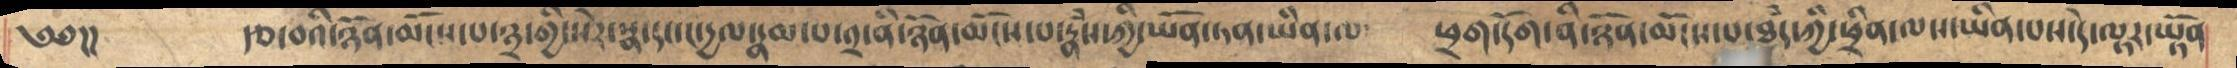༄༅།།     རྩ་བའི་ཉོན་མོངས་པ་༣་གྱི་སེར་སྣ་དང་ང་རྒྱལ་རྣམ་པ་༢་ནི་ཉོན་མོངས་པ་རྣཾས་ཀྱི་ཡོན་ཏན་ཡིན་ལ༴   ཕྲག་དོག་ནི་ཉོན་མོངས་པ་ཐམད་ཀྱི་ཕྲིན་ལས་ཡིན་པས་དེ་ལྟར་ཡྟོན
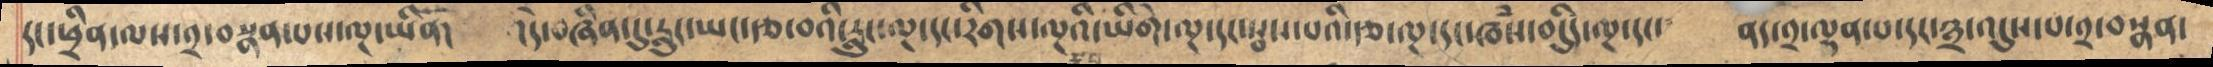རང་ཕྲིན་ལས་༢་བསྣན་པས་ལྔ་ཡིནོ།  དེ་བཞིན་དུ་རླུང་ཡང་རྩ་བའི་རླུང་ལྔ་དང་རིགས་ལྔའི་ཡིགེ་ལྔ་དང་སྦས་པའི་རྩ་ལྔ་དང་ཁཾས་བདིུད་ལྔ་དང་༴  ནད་༢་ལྡན་པ་དང་༣་འདུས་པ་༢་བསྣན་
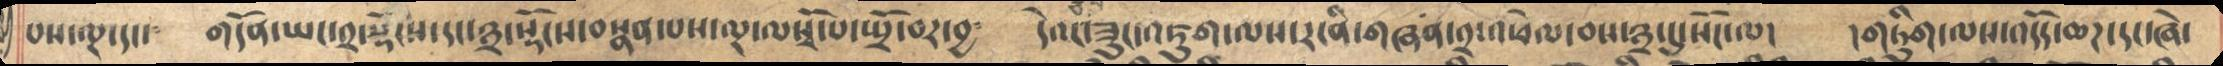པས་ལྔ་དང་༴    གདོན་ཡང་༢་སྡོངས་དང་༣་སྡོངས་བསྣན་པས་ལྔ་ལསྭོ་པ་སྤྲོ་བར་བྱ༴    དེའང་ཟུང་འཇུག་ལས་རངིན་གཞན་༢་འཕེལ་བས་༣་དུ་སོང་ལ།   །གཏིུག་ལས་འདོད་ཆཌ་དང་ཞེ་
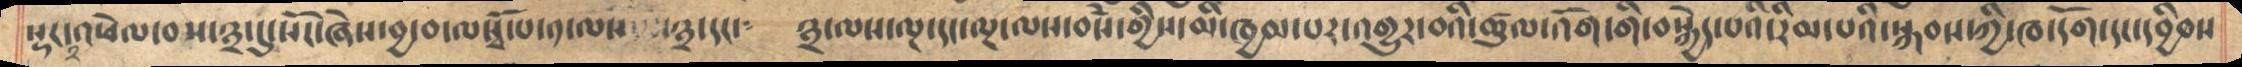སྡང་༢་འཕེལ་བས་༣་དུ་སོང་ཞེས་བྱ་བ་ལསྭོ་པ་༡་ལས་༣་དང་༴  ༣་ལས་ལྔ་དང་ལྔ་ལས་བསཾ་གྱིས་མི་ཁྱམ་པར་འགྱུར་བའི་ཚུལ་འོག་གི་བསྐྱེད་པའི་རིམ་པའི་སྐབས་ཀྱི་ཁ་དོག་དང་དབྱིབས
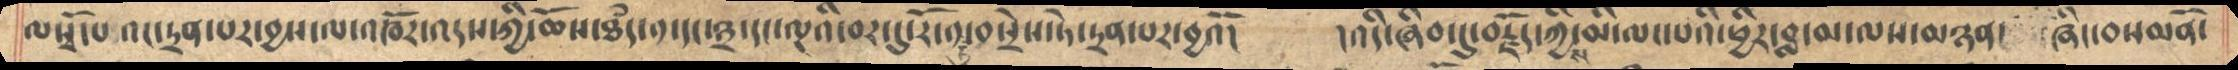ལསྭོ་པ་འང་དྲན་པར་བྱས་ལ་འཁོར་འདས་ཀྱི་ཆོས་ཐཾད་༡་དང་༣་དང་ལྔའི་བར་དུ་རོ་༡་ཏུ་བསྲེས་ཏེ་དྲན་པར་བྱའོ།  །འདི་ཞིབ་དུ་བརྗོད་ཀྱིས་མི་ལང་པའི་ཕྱིར་བླ་མ་ལས་མཉན་  ཞིང་བསམནོ་
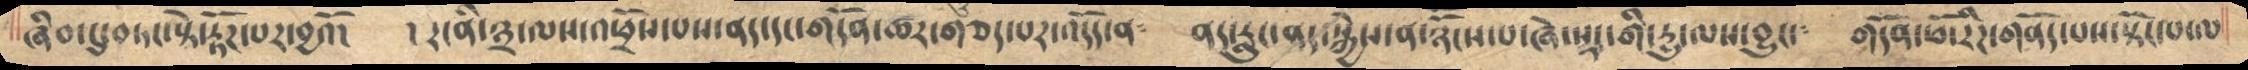ཞིབ་དུ་བཏང་སྟེ་རྟོཌ་པར་བྱའོ།   ། རངིན་༣་ལས་འཕྲོས་པས་ནད་དང་གདོན་ཚར་གཅད་པར་འདོད་ན༴   ནད་རླུང་ནད་སྐྱེས་ན་ཉཽངས་པ་ཞེ་སྡང་གི་དྱུ་ལས་བྱུང་༴   གདོན་ཕོ་རིཌ་གནོད་པས་སྟོང་པ་ལ
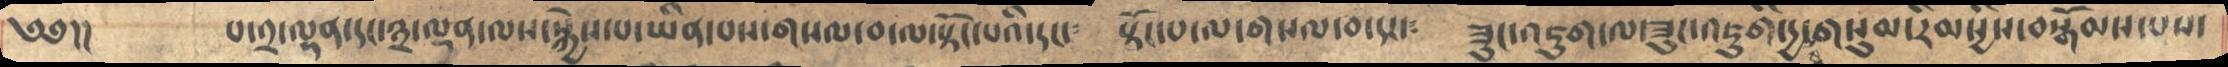༄༅།།    པ་༢་ལྷན་དང་༣་ལྡན་ལས་སྐྱེས་པ་ཡིན་པས་གསལ་བ་ལ་སྟོང་པའི་དང་༴ སྟོང་པ་ལ་གསལ་བ་དང་༴  ཟུང་འཇུག་ལ་ཟུང་འཇུགི་དྱསུ་གསུམ་རིམསྱིས་བསྒོམས་པས་
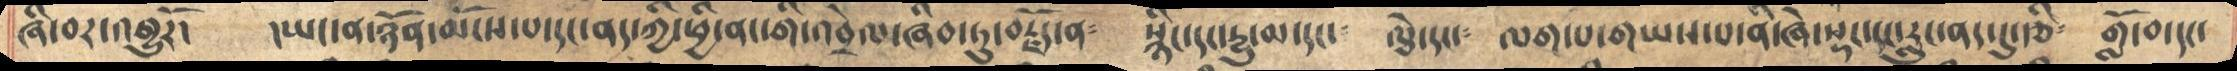ཞི་བར་འགྱུརོ།    །ཡང་ན་ཉོན་མོངས་པ་དང་ནད་ཀྱི་ཕྱི་ནང་གི་འབྲེལ་ཞིབ་ཏུ་བརྗོད་ན༴    སྙིང་དང་དྱུ་མ་དང་༴   ལྕེ་དང༴   ལག་པ་གཡས་པ་ནི་ཞེ་སྡང་དང་རླུང་ནད་དུ་རྩི༴  གློ་བ་དང་
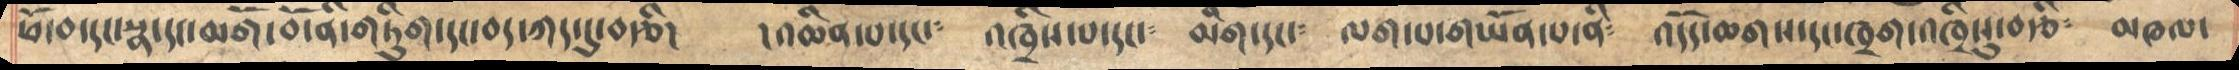ཕོ་བ་དང་སྣ་དང་མགོ་བོ་ནི་གཏིུག་དང་བད་ཀད་དུ་བརྩི།    །འཆིན་པ་དང་༴   འཁྲིས་པ་དང་༴   མིག་དང་ ༴  ལག་པ་གཡོན་པ་ནི༴  འདོད་ཆགས་དང་ཁྲག་འཁྲིསུ་བརྩི༴   མཁལ་
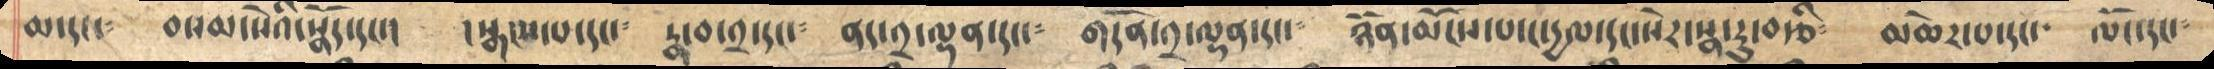ཆ་དང་༴    བསམ་པེའི་སྣོད་དང་།    །སྒངས་པ་དང་༴  རྣ་བ་༢་དང་  ནད་༢་ལྷན་དང་༴  གདོན་༢་ལྷན་དང་༴ ཉོན་མོངས་པ་ང་དྱལ་དང་སེར་སྣ་རུ་བརྩི༴   མཆེར་པ་དང་༴ ལོང་དང་༴
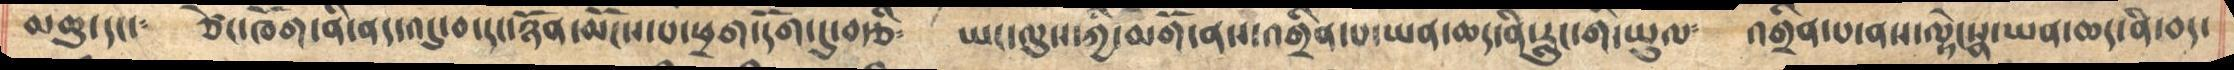མཆུ་དང་༴   ཙེང་ཁོག་ནི་ནད་འདུ་བ་དང་ཉོན་མོངས་པ་ཕྲག་དོག་དུ་བརྩི༴   ཡར་ལུས་ཀྱི་མགོ་ནས་འགྲིན་པ་ཡན་ཆད་ནི་རླུང་གི་ཡུལ༴  འགྲིན་པ་ནས་ལྟེ་སྣ་ཡན་ཆད་ནི་བད་
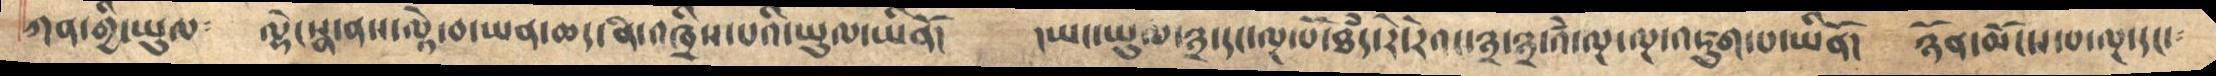ཀན་གྱི་ཡུལ༴   ལྟེ་སྣ་ནས་ལྟེ་བ་ཡན་ཆད་ནི་འཁྲིས་པའི་ཡུལ་ཡིནོ།   །ཡང་ཡུལ་༣་དང་ལྔ་པོ་ཐམད་རེ་རེའང་༣་༣་འཾ་ལྔ་ལྔ་འཇུག་པ་ཡིནོ།     །ཉོན་མོངས་པ་ལྔ་དང་༴
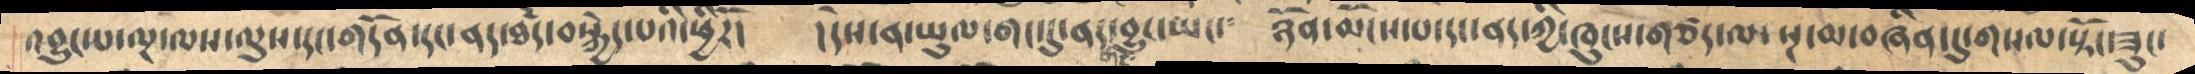འབྱུང་པ་ལྔ་ལས་ལུས་དང་གདོན་དང་ནད་ཐཾད་བསྐྱེད་པའི་ཕྱིརོ།  །དེས་ན་ཡུལ་གང་དུ་ནད་གང་བྱུང་ཡང་༴ ཉོན་མོངས་པ་དང་ནད་ཀྱི་ཁུངས་གཙད་ལ་སྔ་མ་བཞིན་དུ་གསལ་སྟོང་ཟུང་
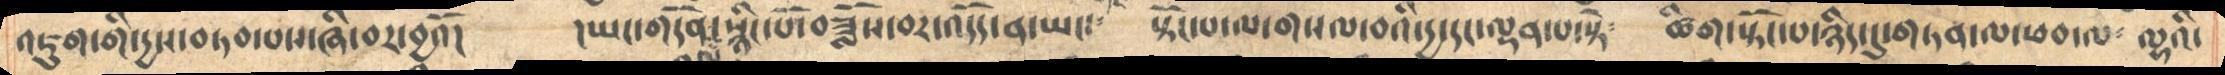འཇུག་གི་དྱས་བཏབ་པས་ཞི་བར་བྱའོ།    །ཡང་གདོན་སྙིང་པོ་བཟློས་བར་འདོད་ན་ཡང་༴   སྟོང་པ་ལ་གསལ་བའི་དྱ་དང་ལྡན་པ་སྟེ༴  ཚིག་སྟོང་པ་ཉིད་དུ་གཏན་ལ་ཕབ་ལ༴  ལྷའི་
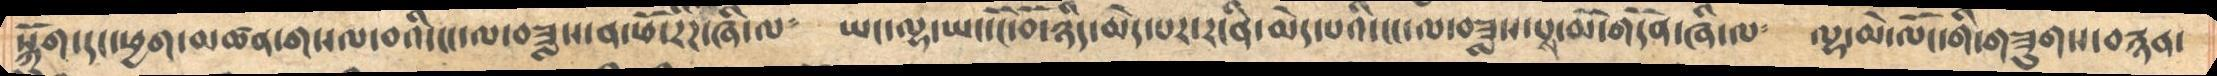སྐོུག་དང་ཕྱག་མཚན་གསལ་བའི་ངང་ལ་བཟླས་ན་ཕོ་རིཌ་ཞི་ལ༴  ཡང་ལྷ་ཡང་ངོ་བོ་ཉིད་མེད་པར་རངིན་མེད་པའི་ངང་ལ་བཟླས་པས་མོ་གདོན་ཞི་ལ༴  ལྷ་མེ་ལོང་གི་གཟུགས་བརྙན་
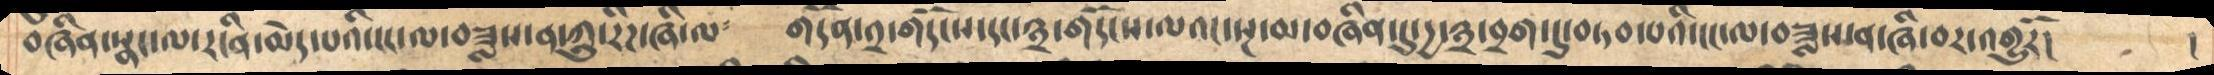བཞིན་སྣང་ལ་རངིན་མེད་པའི་ངང་ལ་བཟླས་ན་ཀླུ་རིཌ་ཞི་ལ༴   གདོན་༢་གདོངས་དང་༣་གདོངས་ལའང་སྔ་མ་བཞིན་དུ་དྱ་༣་བྲག་དུ་བཏབ་པའི་ངང་ལ་བཟླས་ན་ཞི་བར་འགྱུརོ།   །
